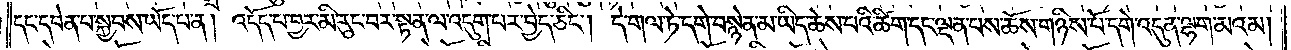དང་དབེན་པ་སྐྱབས་ཡོད་པ་ན། འདོད་པ་བྱར་མི་རུང་བར་སྟན་ལ་འདུག་པར་བྱེད་ཅིང༌། དེ་གལ་ཏེ་དགེ་བསྙེན་མ་ཡིད་ཆེས་པའི་ཚིག་དང་ལྡན་པས་ཆོས་གཉིས་པོ་དགེ་འདུན་ལྷག་མའམ།
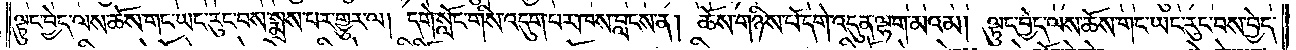ལྟུང་བྱེད་ལས་ཆོས་གང་ཡང་རུང་བས་སྨྲས་པར་གྱུར་ལ། དགེ་སློང་གིས་འདུག་པར་ཁས་བླངས་ན། ཆོས་གཉིས་པོ་དགེ་འདུན་ལྷག་མའམ། ལྟུང་བྱེད་ལས་ཆོས་གང་ཡང་རུང་བས་བྱེད་
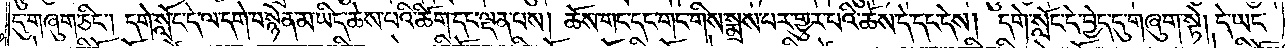དུ་གཞུག་ཅིང༌། དགེ་སློང་དེ་ལ་དགེ་བསྙེན་མ་ཡིད་ཆེས་པའི་ཚིག་དང་ལྡན་པས། ཆོས་གང་དང་གང་གིས་སྨྲས་པར་གྱུར་པའི་ཆོས་དེ་དང་དེས། དགེ་སློང་དེ་བྱེད་དུ་གཞུག་སྟེ། དེ་ཡང་
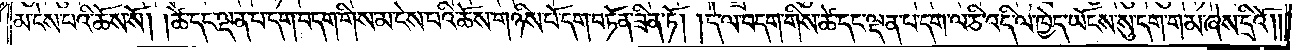མ་ངེས་པའི་ཆོས་སོ། །ཚེ་དང་ལྡན་པ་དག་བདག་གིས་མ་ངེས་པའི་ཆོས་གཉིས་པོ་དག་བཏོན་ཟིན་ཏོ། །དེ་ལ་བདག་གིས་ཚེ་དང་ལྡན་པ་དག་ལ་ཅི་འདི་ལ་ཁྱེད་ཡོངས་སུ་དག་གམ་ཞེས་དྲིའོ༎
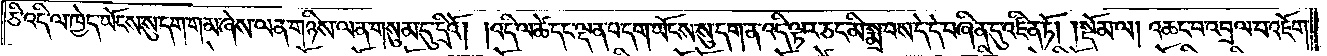ཅི་འདི་ལ་ཁྱེད་ཡོངས་སུ་དག་གམ་ཞེས་ལན་གཉིས་ལན་གསུམ་དུ་དྲིའོ། །འདི་ལ་ཚེ་དང་ལྡན་པ་དག་ཡོངས་སུ་དག་ན་འདི་ལྟར་ཅང་མི་སྨྲ་བས་དེ་དེ་བཞིན་དུ་འཛིན་ཏོ།    །སྡོམ་ལ། འཆང་བ་འབྲལ་བ་འཇོག་
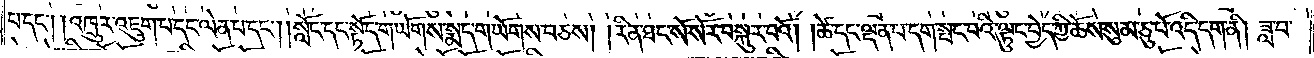པ་དང༌། །འཁྲུར་འཇུག་པ་དང་ལེན་པ་དང༌། །སློང་དང་སྟོད་གཡོགས་སྨད་གཡོགས་བཅས། །རིན་ཐང་སོ་སོར་བསྐུར་བའོ། །ཚེ་དང་ལྡན་པ་དག་སྤང་བའི་ལྟུང་བྱེད་ཀྱི་ཆོས་སུམ་ཅུ་པོ་འདི་དག་ནི། ཟླ་བ་
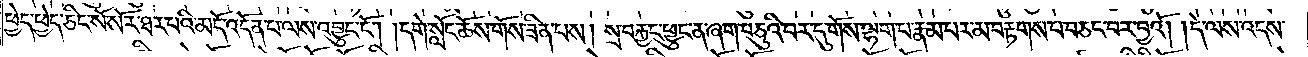ཕྱེད་ཕྱེད་ཅིང་སོ་སོར་ཐར་པའི་མདོ་འདོན་པ་ལས་འབྱུང་ངོ༌། །དགེ་སློང་ཆོས་གོས་ཟིན་པས། སྲ་བརྐྱང་ཕྱུང་ན་ཞག་བཅུའི་བར་དུ་གོས་ལྷག་པ་རྣམ་པར་མ་བརྟགས་པ་བཅང་བར་བྱའོ། །དེ་ལས་འདས་
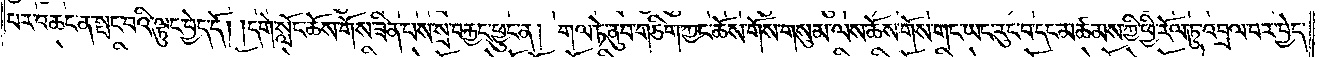པར་འཆང་ན་སྤང་བའི་ལྟུང་བྱེད་དོ། །དགེ་སློང་ཆོས་གོས་ཟིན་པས་སྲ་བརྐྱང་ཕྱུང་ན། གལ་ཏེ་ནུབ་གཅིག་ཀྱང་ཆོས་གོས་གསུམ་ལས་ཆོས་གོས་གང་ཡང་རུང་བ་དང་མཚམས་ཀྱི་ཕྱི་རོལ་ཏུ་འབྲལ་བར་བྱེད་
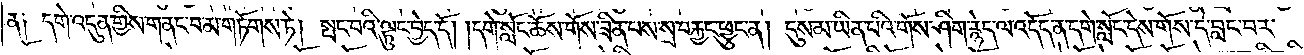ན༑ དགེ་འདུན་གྱིས་གནང་བ་མ་གཏོགས་ཏེ། སྤང་བའི་ལྟུང་བྱེད་དོ། །དགེ་སློང་ཆོས་གོས་ཟིན་པས་སྲ་བརྐྱང་ཕྱུང་ན། དུས་མ་ཡིན་པའི་གོས་ཤིག་རྙེད་ལ་འདོད་ན་དགེ་སློང་དེས་གོས་དེ་བླང་བར་
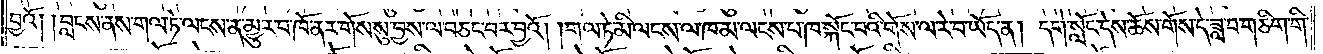བྱའོ༑ །བླངས་ནས་གལ་ཏེ་ལངས་ན་མྱུར་བ་ཁོ་ནར་གོས་སུ་བྱས་ལ་བཅང་བར་བྱའོ། །གལ་ཏེ་མི་ལངས་ལ་ཁ་མ་ལངས་པ་ཁ་སྐོང་བའི་གོས་ལ་རེ་བ་ཡོད་ན། དགེ་སློང་དེས་ཆོས་གོས་དེ་ཟླ་བ་གཅིག་གི་
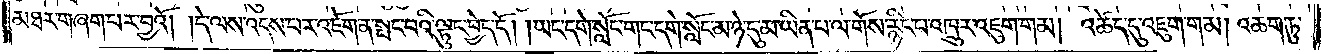མཐར་གཞག་པར་བྱའོ། །དེ་ལས་འདས་པར་འཇོག་ན་སྤང་བའི་ལྟུང་བྱེད་དོ། །ཡང་དགེ་སློང་གང་དགེ་སློང་མ་ཉེ་དུ་མ་ཡིན་པ་ལ་གོས་རྙིང་པ་འཁྲུར་འཇུག་གམ། འཚེད་དུ་འཇུག་གམ། འཆག་ཏུ་
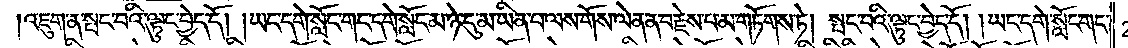།འཇུག་ན་སྤང་བའི་ལྟུང་བྱེད་དོ། །ཡང་དགེ་སློང་གང་དགེ་སློང་མ་ཉེ་དུ་མ་ཡིན་པ་ལས་གོས་ལེན་ན་བརྗེས་པ་མ་གཏོགས་ཏེ། སྤང་བའི་ལྟུང་བྱེད་དོ། །ཡང་དགེ་སློང་གང་
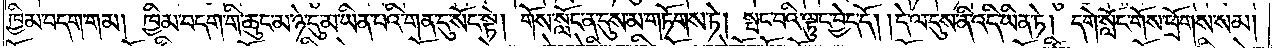ཁྱིམ་བདག་གམ། ཁྱིམ་བདག་གི་ཆུང་མ་ཉེ་དུ་མ་ཡིན་པའི་གན་དུ་སོང་སྟེ། གོས་སློང་ན་དུས་མ་གཏོགས་ཏེ། སྤང་བའི་ལྟུང་བྱེད་དོ། །དེ་ལ་དུས་ནི་འདི་ཡིན་ཏེ། དགེ་སློང་གོས་ཕྲོགས་སམ།
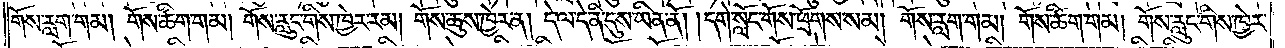གོས་རླག་གམ། གོས་ཚིག་གམ། གོས་རླུང་གིས་ཁྱེར་རམ། གོས་ཆུས་ཁྱེར་ན། དེ་ལ་དེ་ནི་དུས་ཡིན་ནོ། །དགེ་སློང་གོས་ཕྲོགས་སམ། གོས་རླག་གམ། གོས་ཚིག་གམ། གོས་རླུང་གིས་ཁྱེར་
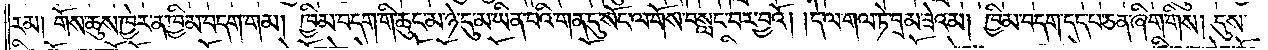རམ། གོས་ཆུས་ཁྱེར་ན་ཁྱིམ་བདག་གམ། ཁྱིམ་བདག་གི་ཆུང་མ་ཉེ་དུ་མ་ཡིན་པའི་གན་དུ་སོང་ལ་གོས་བསླང་བར་བྱའོ། །དེ་ལ་གལ་ཏེ་བྲམ་ཟེའམ། ཁྱིམ་བདག་དད་པ་ཅན་ཞིག་གིས། དུས་
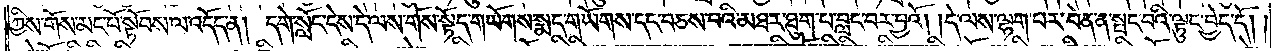ཀྱིས་གོས་མང་པོ་སྟོབས་ལ་འདོད་ན། དགེ་སློང་དེས་དེ་ལས་གོས་སྟོད་གཡོགས་སྨད་གཡོགས་དང་བཅས་པའི་མཐར་ཐུག་པ་བླང་བར་བྱའོ། །དེ་ལས་ལྷག་པར་བེན་ན་སྤང་བའི་ལྟུང་བྱེད་དོ། །
